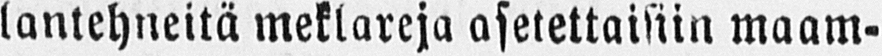lantehneitä meklareja asetettaisiin maam-
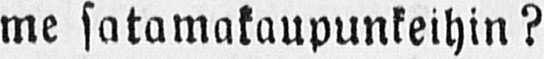me satamakaupunkeihin?
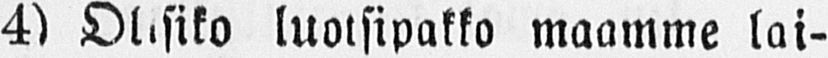4) Olisiko luotsipakko maamme lai-
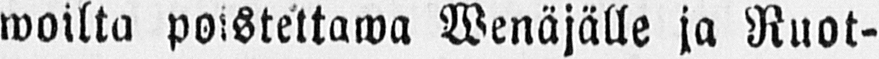woilta poistettawa Wenäjälle ja Ruot-
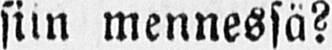siin mennessä?
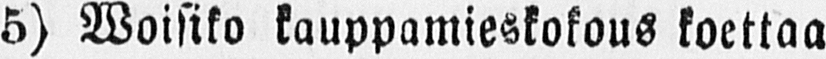5) Woisiko kauppamieskokous koettaa
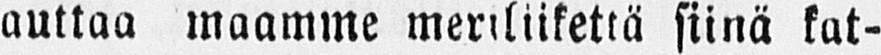auttaa maamme meriliikettä siinä kat-
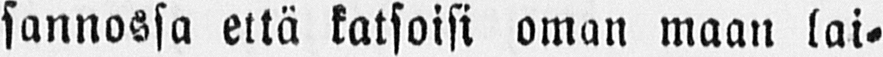sannassa että katsoisi oman maan lai-
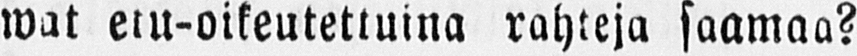wat etu-oikeutettuina rahteja saamaa?
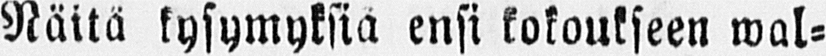Näitä kysymyksiä ensi kokoukseen wal-
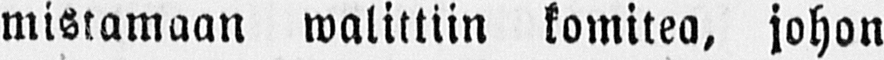mistamaan walittiin komitea, johon
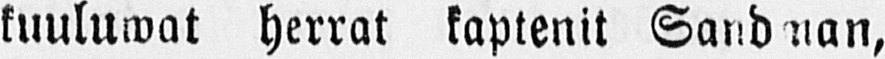kuuluwat herrat kaptenit Sandman,
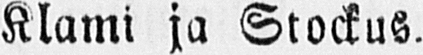Klami ja Stockus.
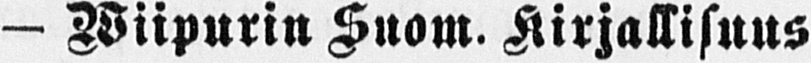— Wiipurin Suom. Kirjallisuus
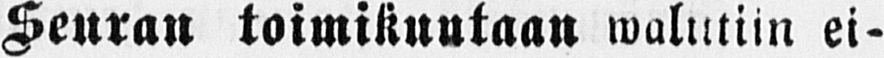Seuran toimikuntaan walutiin ei-
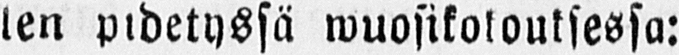len pidetyssä wuosikolouksessa:
